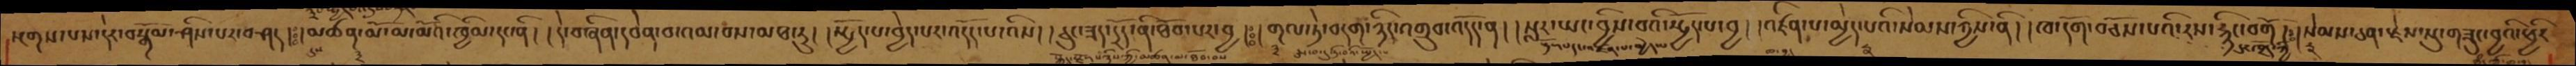སྔགས་པས་དེར་བསྒོམ་ཤིས་པར་བཤད། ཿ  །མཚན་མོ་མ་མོའི་ཁྱིམ་དང་ནི། །དེ་བཞིན་དབེན་བ་འམ་བས་མཐ་རུ། །སྤྱོད་པ་བྱེད་པར་འདོད་པ་འིས། །ཅུང་ཟད་དྲོད་ནི་ཐོབ་པར་བྱ། ཿ །གལ་ཏེ་བདག་ཉིད་འགྲུབ་འདོད་ན། །སླར་ཡང་བྱིས་པའི་སྤྱོད་པ་བྱ། འཛིན་པ་མྱེད་པའི་སེམས་ཀྱིས་ནི། །ཁ་དོག་བཅོས་པའི་རས་རྙིང་བགོ། ༴།སེམས་ཅན་རྗེས་སུ་གཟུང་བྱའི་ཕྱིར
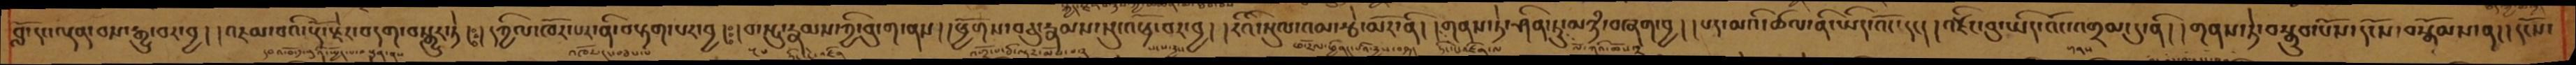བློ་དང་ལྡན་བས་རྒྱུ་བར་བྱ། །འཇམ་པའི་རྡོ་རྗེར་བདག་བསྒྱུར་ཏེ། །དཀྱིལ་འཁོར་པར་ནི་བརྟག་པར་བྱ། །བ་སྤུ་རྣམས་ཀྱི་བུ་ག་ནས། །ཕྱོགས་བཅུ་རྣམས་སུ་འཕྲོ་བར་བྱ། །རིའི་སུལ་འམ་རྩེ་མོར་ནི། །གནས་ཏེ་ཤིན་ཏུ་མཉཾ་བཞག་བྱ། །པད་མའི་ཚལ་ནི་ཡིད་འོང་དང། །འཛིང་བུ་ཡིད་འོང་འགྲམ་དུ་ནི། །གནས་ཏེ་བསྒྲུབ་པོས་དངོས་བསྒོམས་ན། །དངོས་
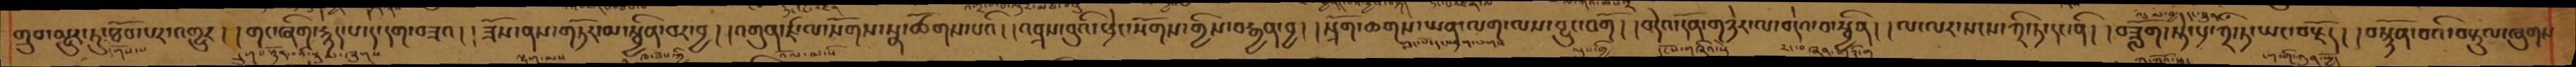གྲུབ་མྱུར་ཏུ་ཐོབ་པར་འགྱུར། །གང་ཞིག་རྙེད་པ་དེ་དག་བཟའ། །ཟོས་ནས་གཏོར་མ་སྦྱིན་པར་བྱ། །འགུན་ཛ་ལ་སོགས་སྣ་ཚོགས་པའི། །འབྲས་བུའི་ཕྲེང་སོགས་གྱིས་བརྒྱན་བྱ། སྲོག་ཆགས་ཡན་ལག་ལས་བྱུང་བགོ། །བདེའ་དོན་གཉེར་ལ་བདེའ་བ་སྦྱིན། །ལ་ལར་སངས་ཀྲི་ཏ་དང་ནི། །བཟློག་སྟེ་པྲ་ཀྲི་ཏ་ཡང་བརྗོད། །བསྙོན་བའི་བརྟུལ་ཞུགས་
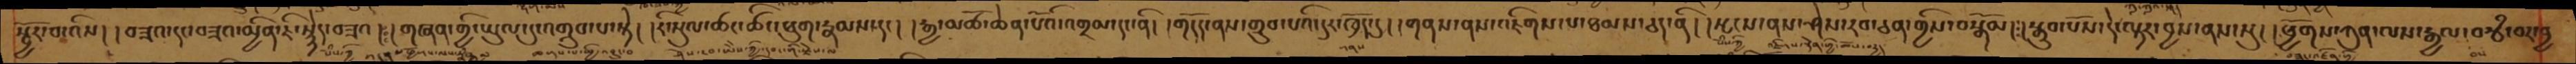སྦྱོར་བ་འིས། །བཟའ་དང་བཟའ་མྱིན་ཇི་སྙེད་བཟའ། །གཞན་གྱི་ཡུལ་དུ་འགྲུབ་པ་སྟེ། །རི་སུལ་ཚང་ཚིང་ཕུག་རྣམས་དང། །རྒྱ་མཚོ་ཆེན་པོའི་འགྲམ་དང་ནི། །གདོད་ནས་གྲུབ་པའི་དུར་ཁྲོད་དུ། །གནས་ནས་འཇིགས་པ་ཐམས་ཅད་ནི། །སྤངས་ནས་ཤེས་རབ་ཅན་གྱིས་བསྒོམ། ༴ །སྒྲུབ་པོས་དེ་ལྟར་བྱས་ནས་སུ། །ཕྱོགས་ཀུན་ལས་རྒྱལ་བརྩཾ་པར་བྱ
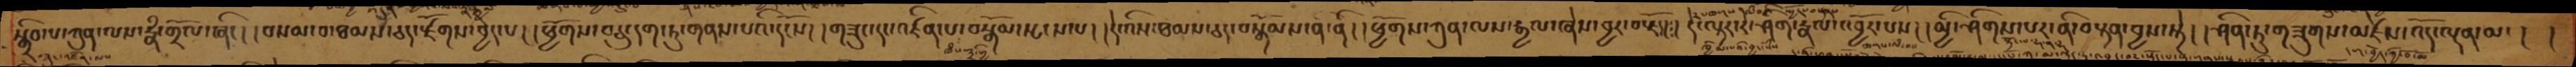སྒྲིབ་པ་ཀུན་ལས་རྣཾ་གྲོལ་ཞིང། །བསམ་བ་ཐམས་ཅད་རྫོགས་བྱེད་པ། །ཕྱོགས་བཅུ་དག་ཏུ་གནས་པའི་དངོས། །གཟུང་དང་འཛིན་པ་བསྒོམ་སྤང་པ། །དེ་འིས་ཐམས་ཅད་བསྒོམས་ན་ནི། །ཕྱོགས་ཀུན་ལས་རྒྱལ་ཞེས་བྱར་བརྗོད།༴།དེ་ལྟར་རེ་ཤིག་རྣལ་འབྱོར་པས། །མྱི་ཤིགས་པར་ནི་བསྟན་བྱས་སྟེ། །ཤིན་ཏུ་གཟུགས་མཛེས་འོད་ལྡན་མ་། །
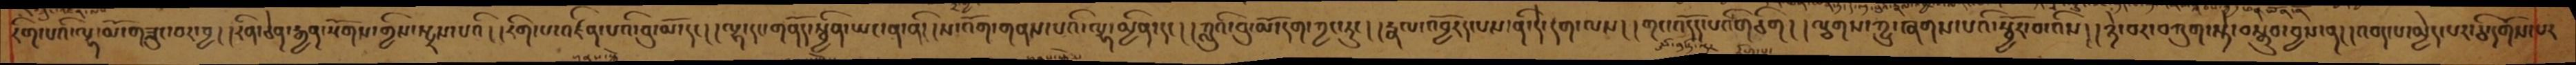རིག་པའི་ལྷ་མོ་གཟུང་བར་བྱ། །རིན་ཅེན་རྒྱན་སོགས་གྱིས་སྤྲས་པའི། །རིག་པ་འཛིན་པའི་བུ་མོ་དང། །ལྷ་དང་གནོད་སྦྱིན་ཡང་ན་ནི། །ས་འོག་གནས་པའི་ལྷ་མྱིན་དང། །ཀླུའི་བུ་མོ་དག་ཀྱང་རུང། །རྣལ་འབྱོརད་པས་ནི་དེ་དག་ལས། །གང་འདོད་པའི་གཅིག། །ལྕགས་ཀྱུ་ཞགས་པའི་སྦྱོར་བ་འིས། །ཉེ་བར་བཀུག་སྟེ་བསྒྲུབ་བྱས་ན། །འབད་པ་མྱེད་པར་ཅི་དགོས་པར
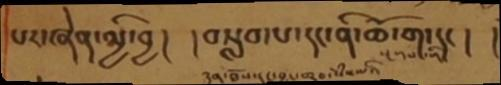པར་ཞེན་མྱི་བྱ། །བསླབ་པ་དང་ནི་ཆོ་ག་དང། །
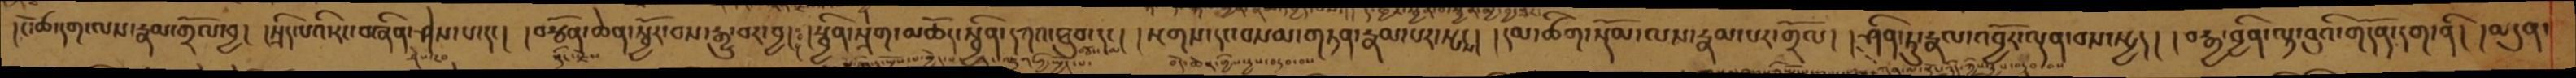།ངོ་ཚ་དག་ལས་རྣམ་གྲོལ་བྱ། །སྲིད་པའི་རང་བཞིན་ཤེས་པ་དང། །བརྩོན་ཆེན་སྦྱོར་བས་རྒྱུ་བར་བྱ། །སྦྱིན་སྲེག་མཆོད་སྦྱིན་དཀའ་ཐུབ་དང། །སྔགས་དང་བསམ་གཏན་རྣམ་པར་སྤངས། །དམ་ཚིག་སྡོམ་ལས་རྣམ་པར་གྲོལ། །ཤིན་ཏུ་རྣལ་འབྱོར་ལྡན་བས་སྤྱད། །བརྒྱ་བྱིན་ལྟ་བུའི་གདོན་དག་ནི། །མདུན་
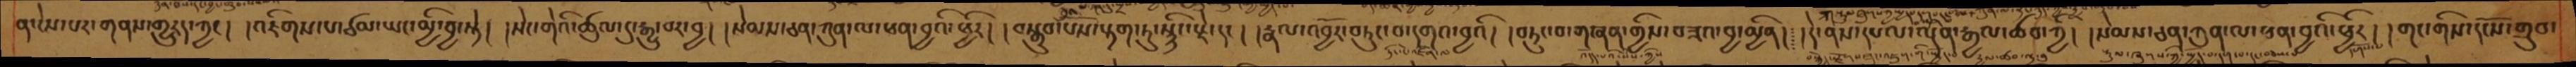ན་ངེས་པར་གནས་གྱུརད་ཀྱང། །འཇིགས་པ་ཙམ་ཡང་མྱི་བྱ་སྟེ། །སེང་གེའི་ཚུལ་དུ་རྒྱུ་བར་བྱ། །སེམས་ཅན་ཀུན་ལ་ཕན་བྱའི་ཕྱིར། །བསྒྲུབ་པོས་རྟག་ཏུ་སྙིང་རྗེ་དང། །རྣལ་འབྱོར་བཏུང་བ་དགའ་བྱའི། །བཏུང་བ་གཞན་གྱིས་བཟའ་བྱ་མྱིན།༴།དེ་ནས་དཔལ་ལྡན་རྒྱལ་ཚབ་ཀྱི། །སེམས་ཅན་ཀུན་ལ་ཕན་བྱའི་ཕྱིར། །གང་གིས་དངོས་གྲུབ་
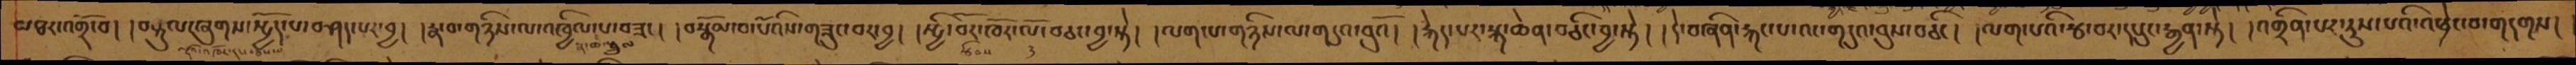མཐར་འགྲོ་བ། །བརྟུལ་ཞུགས་སྤྱོད་པ་བཤད་པར་བྱ། །རྣ་བ་གཉིས་ལ་འཁྱིལ་པ་བཟང། །བསྒོམ་བ་པོའི་གཟུང་བར་བྱ། །སྤྱི་བོར་ཁོར་ལོ་བཅང་བྱ་སྟེ། །ལག་པ་གཉིས་ལ་གདུའ་བུའོ། །རྐེད་པར་སྐ་ཆེན་བཅིང་བྱ་སྟེ། །དེ་བཞིན་རྐང་པ་འང་གདུའ་བུས་བཅིང། །ལག་པའི་རྩ་བར་དཔུང་རྒྱན་སྟེ། །འགྲིན་པར་རུས་པའི་འཕྲེང་བ་གདགས།
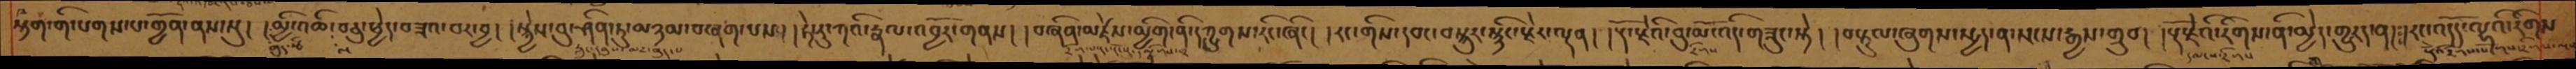སྟག་གིས་པགས་པ་གྱོན་ནས་སུ། །མྱི་འཆི་བཅུ་ཕྱེད་བཟའ་བར་བྱ། །སྐྱེས་བུ་ཤིན་ཏུ་མཉམ་བཞག་པས། །ཧེ་རུ་ཀའི་རྣལ་འབྱོར་གནས། །བཞིན་མཛེས་མྱིག་ནི་དཀྱུགས་རིང་ཞིང། །རང་གིས་དབང་བསྐུར་སྙིང་རྗེར་ལྡན། །རྡོ་རྗེའི་བུ་མོ་འདི་གཟུང་སྟེ། །བརྟུལ་ཞུགས་སྤྱད་ན་སངས་རྒྱས་གྲུབ། །རྡོ་རྗེའི་རིགས་ནི་མྱེད་གྱུརད་ན།༴།རང་འདོད་ལྷའི་རིགས
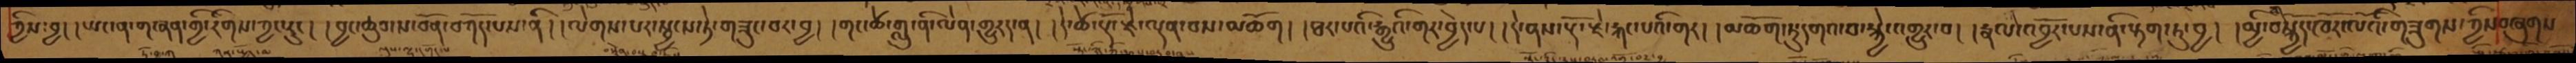ཀྱིས་བྱ། །ཡང་ན་གཞན་གྱི་རིགས་ཀྱང་རུང། །བྱང་ཆུབ་ས་བོན་བཀོད་པས་ནི། །ལེགས་པར་སྦྱངས་ཏེ་གཟུང་བར་བྱ། །གང་ཚེ་གླུ་ནི་ལེན་གྱུརད་ན། །དེ་ཚེ་རྡོ་རྗེ་ལྡན་བས་མཆོག། །ཐར་པའི་རྒྱུའི་གར་བྱེད་པ། །དེ་ནས་རྡོ་རྗེ་རྐང་པའི་གར། །མཆོག་ཏུ་དགའ་བ་སྐྱེ་འགྱུར་བ། །རྣལ་འབྱོར་པས་ནི་རྟག་ཏུ་བྱ། །མྱི་བསྐྱོད་ཁོར་ལོའི་གཟུགས་ཀྱིས་བཞུགས
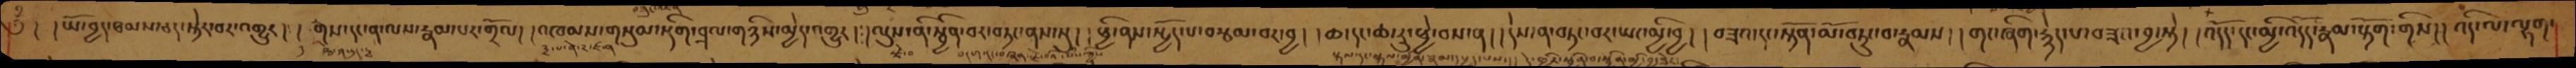༄ྃ། །ཡོ་བྱད་ཐམས་ཅད་སྟེར་བར་འགྱུར། །རྒས་དང་ན་ལས་རྣམ་པར་གྲོལ། །འཁམས་གསུམ་སྡིག་བྲལ་གཉིས་མྱེད་འགྱུར། །ལུས་ནི་སྦྱིན་བར་བཏང་ནས་སུ། །ཕྱི་ནས་སྤྱོད་པ་བརྩམ་བར་བྱ། །ཆ་དང་ཆ་རུ་ཕྱེ་བས་ན། །དེས་ན་བཏང་བར་ཡང་མྱི་བྱ། །བཟའ་དང་སྟོན་མོ་བཏུང་བ་རྣམས། །གང་ཞིག་རྙེད་པ་བཟའ་བྱ་སྟེ། །འདོད་དང་མྱི་འདོད་རྣམ་རྟོག་གིས། །འདི་ལ་ལྷག་
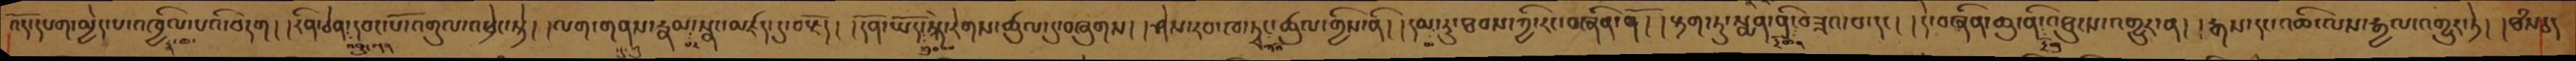འོད་དཔག་མྱེད་པ་འཁྱིལ་པའི་བདག། །རིན་ཅེན་དབང་པོ་འགུལ་འཕྲེང་སྟེ། །ལག་གནས་རྣམ་སྣང་མཛད་དུ་བརྗོད། །དོན་ཡོན་སྐེ་རེགས་ཚུལ་དུ་བཞུགས། །ཤེས་རབ་ཁ་ཏྭང་ཚུལ་གྱིས་ནི། །དམ་རུ་ཐབས་ཀྱི་རང་བཞིན་ནོ། །རྟག་ཏུ་སྨན་ནི་བཟའ་བ་དང། །དེ་བཞིན་ཆུ་ནི་འཐུངས་འགྱུར་ན། །རྒས་དང་འཆི་ལས་རྒྱལ་འགྱུར་ཏེ། །ཐཾསཅད
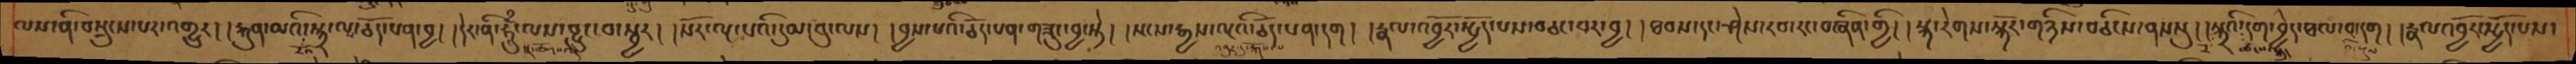ལས་ནི་བསྲུངས་པར་འགྱུར། །རྐུན་མའི་སྐྲ་ལ་ཅོད་པན་བྱ། །དེར་ནི་ཧཱུྃ་ལས་བྱུང་བ་སྦྱར། །སོར་ལྔ་པའི་དུམ་བུ་ལས། །བྱས་པའི་ཅོད་པན་གཟུང་བྱ་སྟེ། །སངས་རྒྱས་ལྔའི་ཅོད་པན་དག། །རྣལ་འབྱོར་སྤྱོད་པས་བཅང་བར་བྱ། །ཐབས་དང་ཤེས་རབ་རང་བཞིན་གྱི། །སྐ་རེགས་སྐོར་གཉིས་བཅིངས་ནས་སུ། །སྐྲའི་དག་བྱེད་ཐལ་བ་དག། །རྣལ་འབྱོར་སྤྱོད་པས་
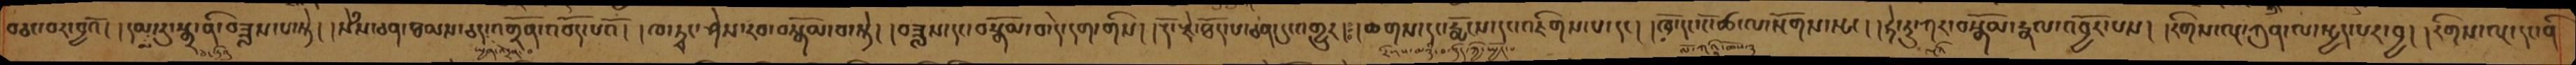བཅང་བར་བྱའོ །དམ་རུ་སྒྲ་ནི་བཟླས་པ་སྟེ། །སེཾས་ཅན་ཐམས་ཅད་འགྲོན་འབོད་པའོ། །ཁ་ཏྭང་ཤེས་རབ་བསྒོམ་བ་སྟེ། །བཟླས་དང་བསྒོམ་བ་དེ་དག་གིས། །རྡོ་རྗེ་ཐོད་པ་ཅན་དུ་འགྱུར། ཿ །ཆགས་དང་རྨོངས་དང་འཇིགས་པ་དང། །ཁྲོ་དང་ངོ་ཚ་ལ་སོགས་སྤང། །ཧེ་རུ་ཀར་བསྒོམ་རྣལ་འབྱོར་པས། །རིགས་ལྔ་ཀུན་ལ་སྤྱད་པར་བྱ། །རིགས་ལྔ་དང་ནི
